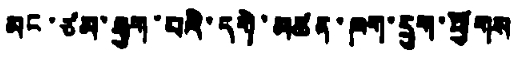མང་ཙམ་རྒྱག་པའི་དགེ་མཚན་ཁག་དྲུག་ཕྱོགས
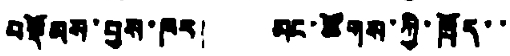བསྡོམས་བྱས་ཁར། མང་ཚོགས་ཀྱི་ཁྲོད་་
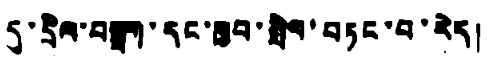དུ་དྲིལ་བསྒྲག་དང་ཁྱབ་སྤེལ་བཏང་བ་རེད།
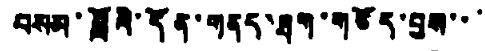བསམ་བློའི་དོན་གནད་ཐག་གཅོད་བྱས་་་
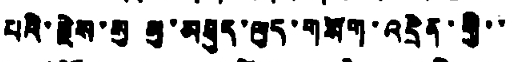པའི་རྗེས་སུ མུ་མཐུད་ལུད་གསག་འདྲེན་གྱི་་
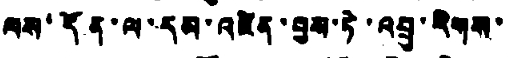ལས་དོན་ལ་དམ་འཛིན་བྱས་ཏེ་འབྲུ་རིགས་
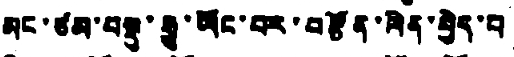མང་ཙམ་བསྡུ་རྒྱུ་ཡོང་བར་བརྩོན་ལེན་བྱེད་པ
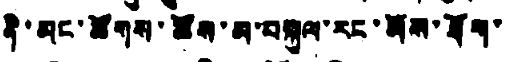ནི་མང་ཚོགས་ཚོས་མ་བསྐྱལ་རང་མོས་ཐོག་
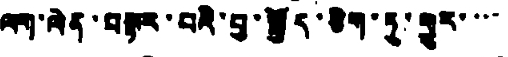ལག་ལེན་བསྟར་བའི་བྱ་སྤྱོད་ཅིག་ཏུ་གྱུར་་་་
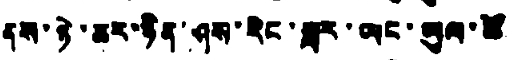ནས་ཉེ་ཆར་ཉིན་ཤས་རིང་སླར་ཡང་ཡུལ་ཚོ
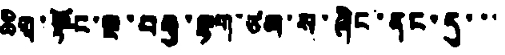ཆིག་སྟོང་ལྔ་བརྒྱ་ལྷག་ཙམ་ས་ཞིང་ནང་དུ་་་
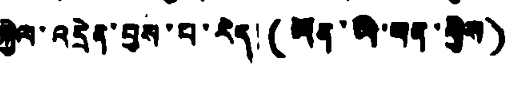སྐྱེལ་འདྲེན་བྱས་པ་རེད། (ཡན་ཡི་ཕན་གྱིས)
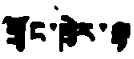གྲོང་ཁྱེར་ལྷ
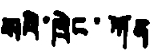སའི་ཁྲེང་ཀོན
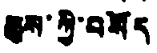ཆུས་ཀྱི་བསོད
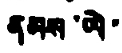ནམས་ཡེ་
